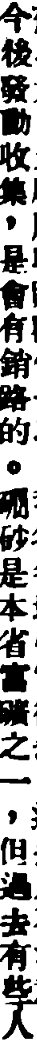今後發動收集，是會有銷路的。硼砂是本省富礦之一，但過去有些人
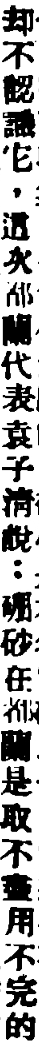却不認識它，這次都蘭代表袁子清說：硼砂在都蘭是取不盡用不完的
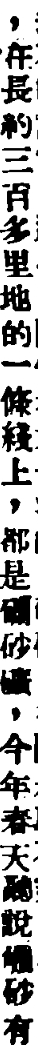，在長約三百多里地的一條綫上，都是硼砂礦，今年春天聽說硼砂有
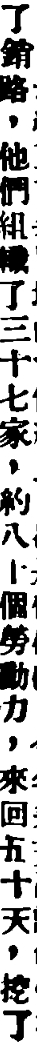了銷路，他們組織了三十七家，約八十個勞動力，來回五十天。挖了
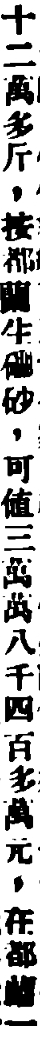十二萬多斤，按都蘭生硼砂，可値三萬萬八千四百多萬元，在都蘭一
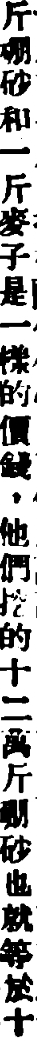斤硼砂和一斤麥子是一樣的價錢，他們挖的十二萬斤硼砂也就等於十
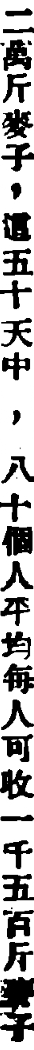二萬斤麥子，這五十天中 ， 八十個人平均每人可收一千五百斤麥子
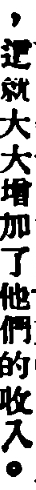，這就大大增加了他們的收入。
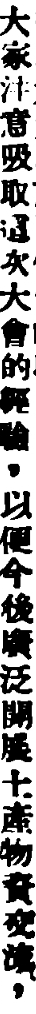大家注意吸取這次大會的經驗，以便今後廣泛開展土產物資交流，
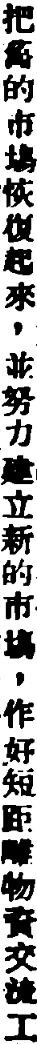把舊的市場恢復起來，並努力建立新的市場，做好短距離物資交流工
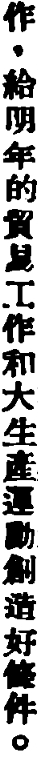作，給明年的貿易工作和大生產運動創造好條件。
